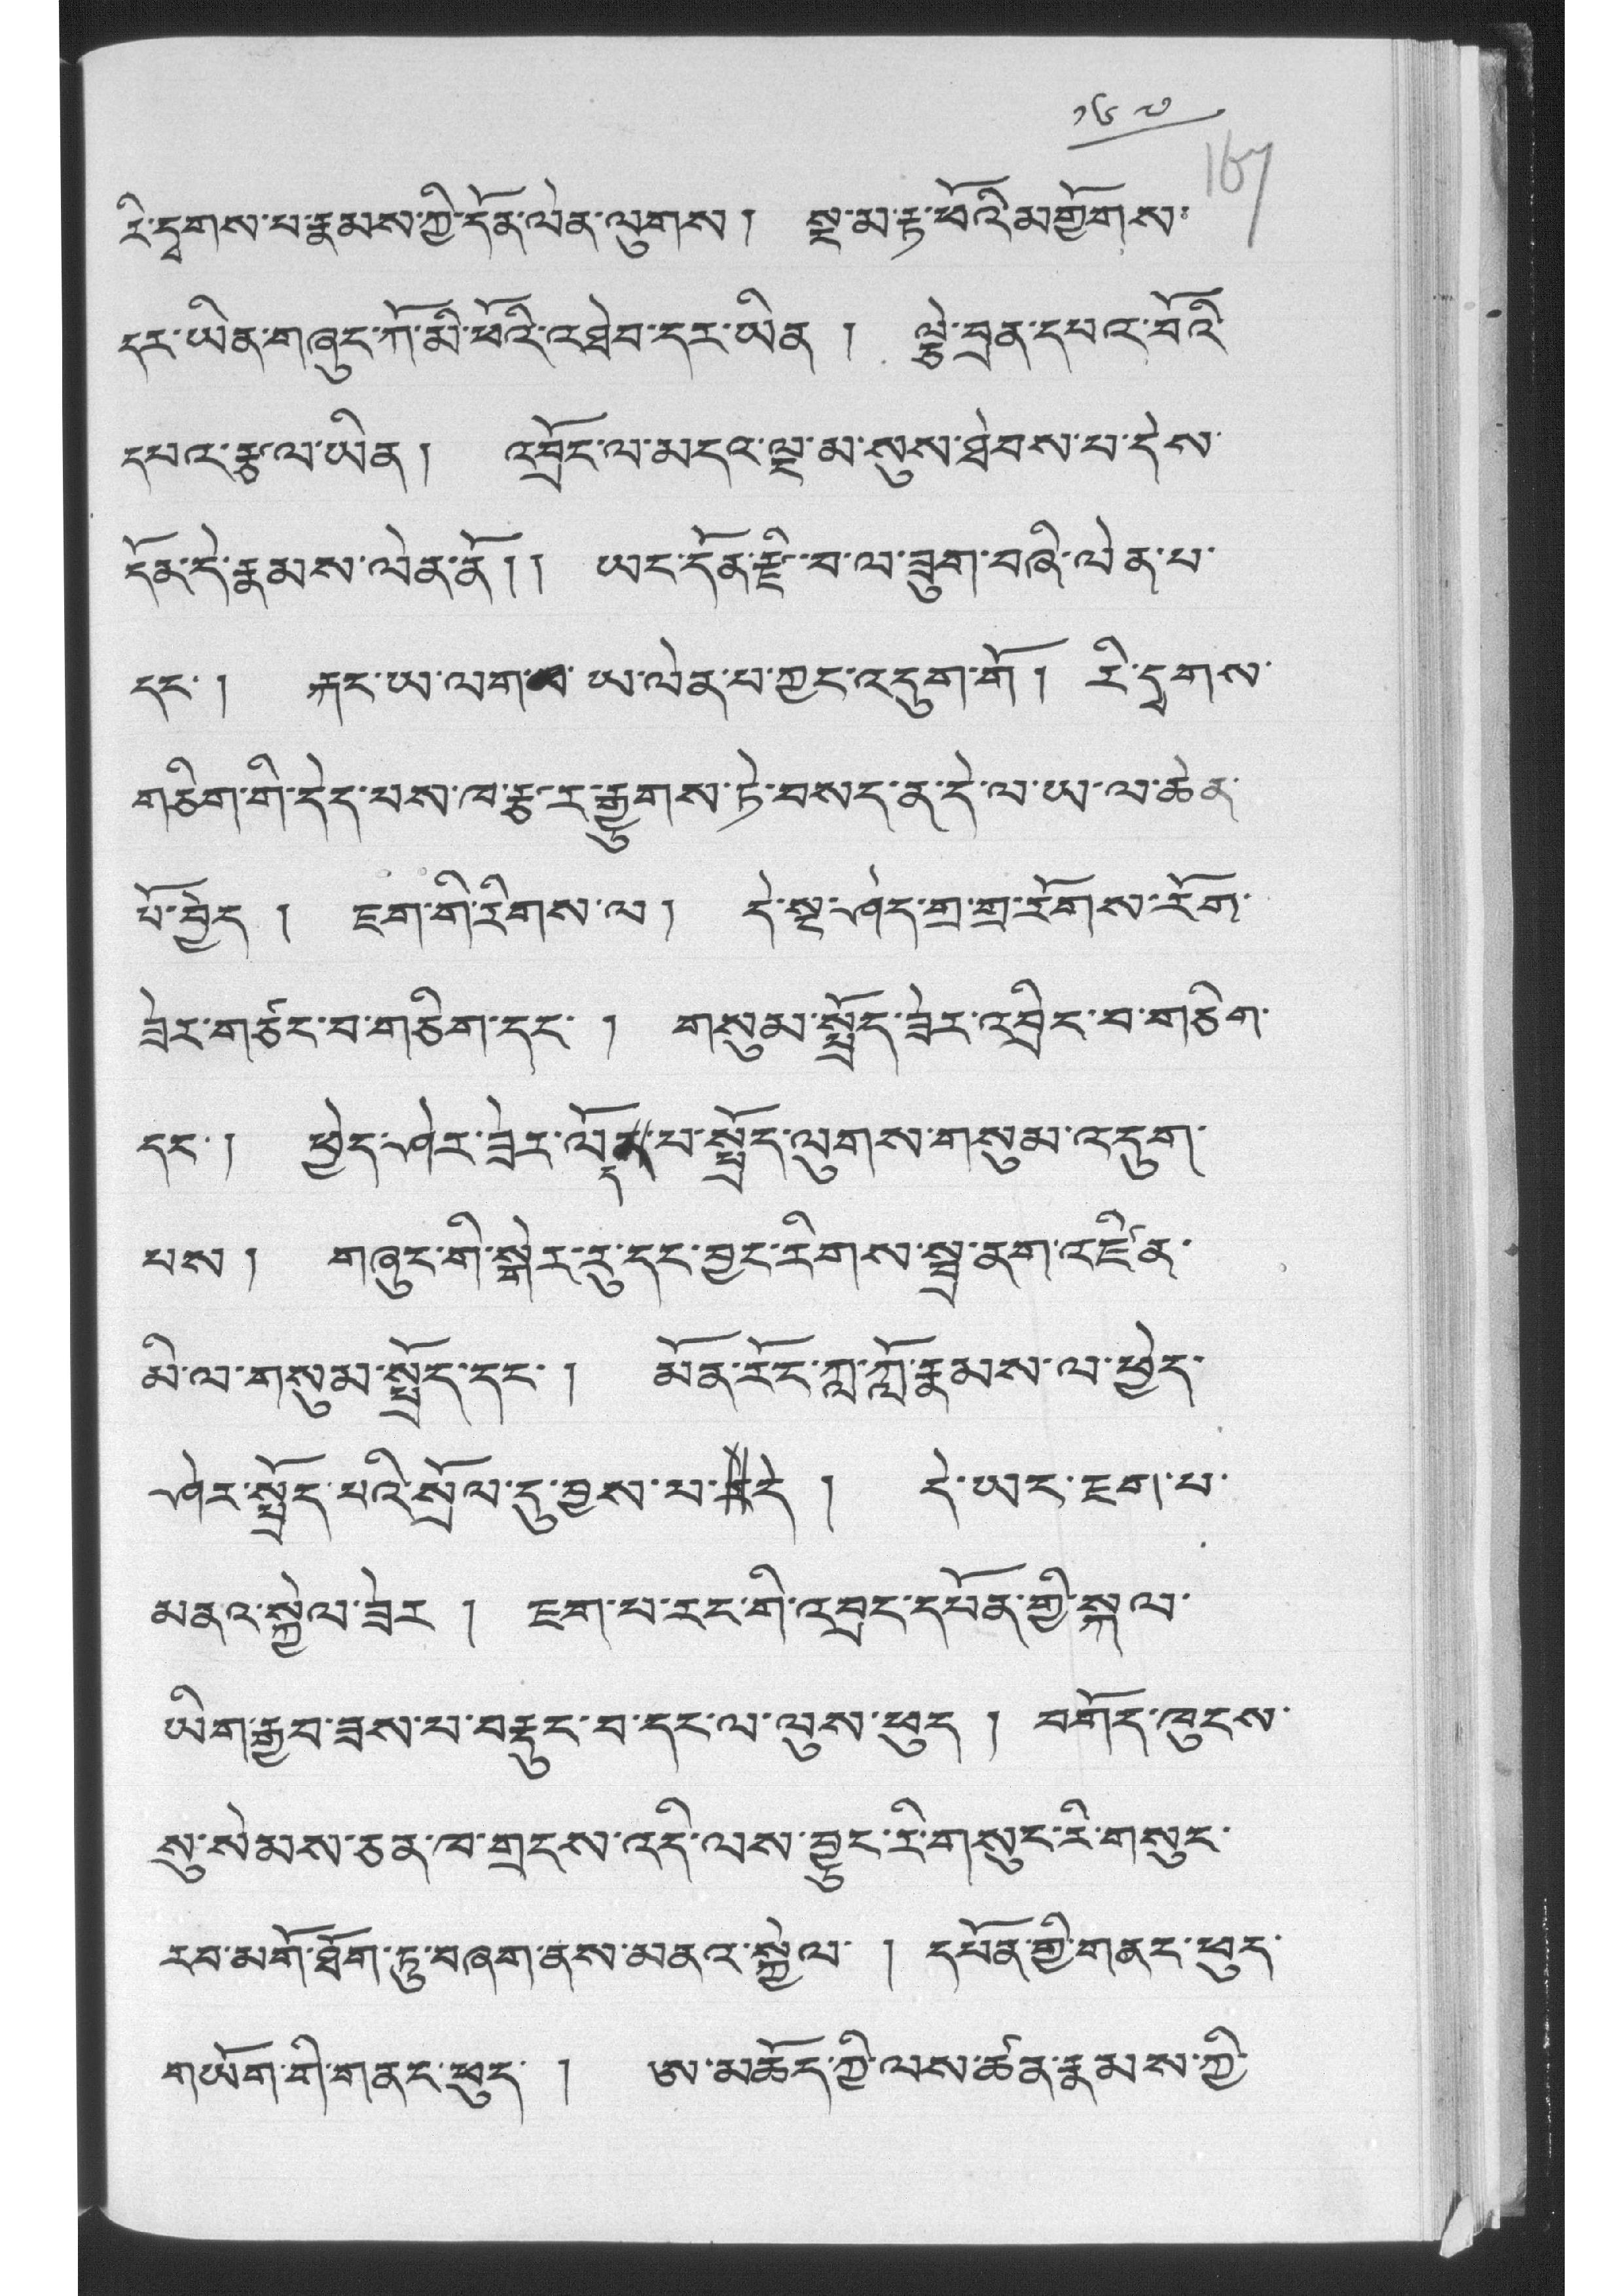༡༦༧
རི་དྭགས་པ་རྣམས་ཀྱི་དོན་ལེན་ལུགས། སྔ་མ་རྟ་ཕོའི་མགྱོགས་
དར་ཡིན་གཞུང་ཀོ་མི་ཕོའི་འཐེབ་དར་ཡིན ། ལྕེ་བྲན་དཔའ་བོའི་
དཔའ་རྩལ་ཡིན། འབྲོང་ལ་མདའ་ལྔ་མ་སུས་ཐེབས་པ་དེས་
དོན་དེ་རྣམས་ལེན་ནོ།། ཡང་དོན་རྫི་བ་ལ་ཟུག་བཞི་ལེན་པ་
དང་། རྐང་ཡ་ལག་མ་ཡ་ལེན་པ་ཀྱང་འདུག་གོ ། རི་དྭགས་
གཅིག་གི་དེད་པས་ཁ་རྩར་རྒྱུགས་ཏེ་བསད་ན་དེ་ལ་ཡ་ལ་ཆེན་
པོ་བྱེད ། ཇག་གི་རིགས་ལ། དེ་སྔ་ཤེད་གྲ་གྲ་རོགས་རོག་
ཟེར་གཙང་བ་གཅིག་དང་ ། གསུམ་སྤྲོད་ཟེར་འབྲིང་བ་གཅིག་
དང་། ཕྱེད་ཤེར་ཟེར་ལོདན་པ་སྤྲོད་ལུགས་གསུམ་འདུག
པས ། གཞུང་གི་སྒེར་རུ་དང་བྱང་རིགས་སྦྲ་ནག་འཛིན་
མི་ལ་གསུམ་སྤྲོད་དང་། མིན་རོང་ཀླ་ཀློ་རྣམས་ལ་ཕྱེད་
ཤེར་སྤྲོད་པའི་སྲོལ་དུ་བྱས་པ་རེདེ ། དེ་ཡང་ཇག་པ་
མནའ་སྐྱེལ་ཟེར ། ཇག་པ་རང་གི་འབྲང་དཔོན་གྱི་སྐལ་
ཡིག་རྒྱབ་ཟས་པ་བརྡུང་བ་དང་ལ་ལུས་ཕུད ། བགོད་ཁུངས་
སུ་སེམས་ཅན་ཁ་གྲངས་འདི་ལས་བྱུང་རི་གསུང་རི་གསུང་
རབ་མགོ་ཐོག་ཏུ་བཞག་ནས་མནའ་སྐྱེལ་ ། དཔོན་གྱི་གནང་ཕུད་
གཡོག་གི་གནང་ཕུད་ ། ཨ་མཆོད་ཀྱི་ལས་ཚན་རྣམས་ཀྱི་
